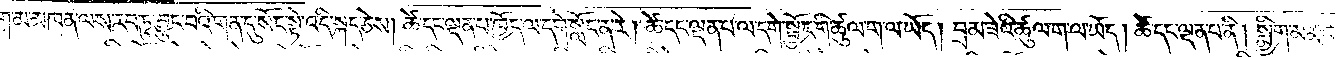སྨྱིག་མ་མཁན་ལས་རབ་ཏུ་བྱུང་བའི་གན་དུ་སོང་སྟེ་འདི་སྐད་ཅེས། ཚེ་དང་ལྡན་པ་ཁྱོད་ལ་དགེ་སློང་ན་རེ། ཚེ་དང་ལྡན་པ་ལ་དགེ་སྦྱོང་གི་ཚུལ་ག་ལ་ཡོད། བྲམ་ཟེའི་ཚུལ་ག་ལ་ཡོད། ཚེ་དང་ལྡན་པ་ནི། སྨྱིག་མ་མཁན་
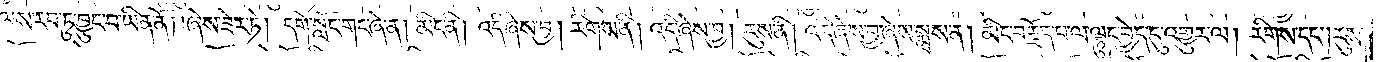ལས་རབ་ཏུ་བྱུང་བ་ཡིན་ནོ། །ཞེས་ཟེར་ཏེ། དགེ་སློང་གང་ཞེ་ན། མིང་ནི། འདི་ཞེས་བྱ། རིགས་ནི། འདི་ཞེས་བྱ། རུས་ནི། འདི་ཞེས་བྱ་ཞེས་སྨྲས་ན། མིང་བརྗོད་པ་ལ་ལྟུང་བྱེད་དུ་འགྱུར་ལ། རིགས་དང༌། རུས་
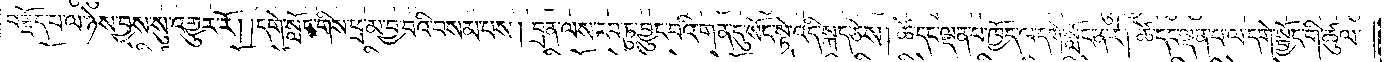བརྗོད་པ་ལ་ཉེས་བྱས་སུ་འགྱུར་རོ། །དགེ་སློང་གིས་ཕྲ་མ་བྱ་བའི་བསམ་པས། བྲན་ལས་རབ་ཏུ་བྱུང་བའི་གན་དུ་སོང་སྟེ་འདི་སྐད་ཅེས། ཚེ་དང་ལྡན་པ་ཁྱོད་ལ་དགེ་སློང་ན་རེ། ཚེ་དང་ལྡན་པ་ལ་དགེ་སྦྱོང་གི་ཚུལ་
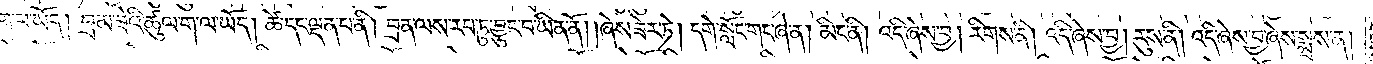ག་ལ་ཡོད། བྲམ་ཟེའི་ཚུལ་ག་ལ་ཡོད། ཚེ་དང་ལྡན་པ་ནི། བྲན་ལས་རབ་ཏུ་བྱུང་བ་ཡིན་ནོ། །ཞེས་ཟེར་ཏེ། དགེ་སློང་གང་ཞེ་ན། མིང་ནི། འདི་ཞེས་བྱ། རིགས་ནི། འདི་ཞེས་བྱ། རུས་ནི། འདི་ཞེས་བྱ་ཞེས་སྨྲས་ན།
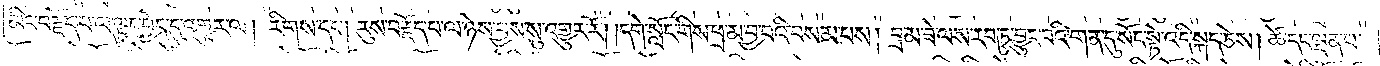མིང་བརྗོད་པ་ལ་ལྟུང་བྱེད་དུ་འགྱུར་ལ། རིགས་དང༌། རུས་བརྗོད་པ་ལ་ཉེས་བྱས་སུ་འགྱུར་རོ། །དགེ་སློང་གིས་ཕྲ་མ་བྱ་བའི་བསམ་པས། བྲམ་ཟེ་ལས་རབ་ཏུ་བྱུང་བའི་གན་དུ་སོང་སྟེ་འདི་སྐད་ཅེས། ཚེ་དང་ལྡན་པ་
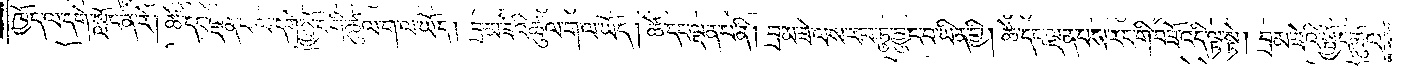ཁྱོད་ལ་དགེ་སློང་ན་རེ། ཚེ་དང་ལྡན་པ་ལ་དགེ་སྦྱོང་གི་ཚུལ་ག་ལ་ཡོད། བྲམ་ཟེའི་ཚུལ་ག་ལ་ཡོད། ཚེ་དང་ལྡན་པ་ནི། བྲམ་ཟེ་ལས་རབ་ཏུ་བྱུང་བ་ཡིན་གྱི། ཚེ་དང་ལྡན་པས་རང་གི་བཟོ་འདི་ལྟ་སྟེ། བྲམ་ཟེའི་སྤྱོད་ཚུལ་
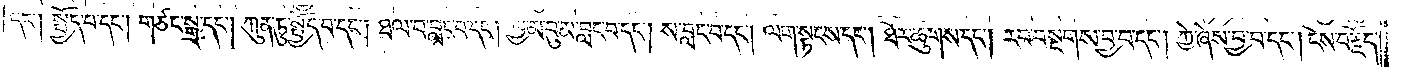དང༌། སྤྱོད་པ་དང༌། གཙང་སྒྲ་དང༌། ཀུན་ཏུ་སྤྱོད་པ་དང༌། ཐལ་བ་བླང་བ་དང༌། བྱ་མ་བུ་མ་བླང་བ་དང༌། ས་བླང་བ་དང༌། ལག་སྟངས་དང༌། ཐོར་ཚུགས་དང༌། རབ་བསྔགས་བྱ་བ་དང༌། ཀྱེ་ཞེས་བྱ་བ་དང༌། ངེས་བརྗོད་
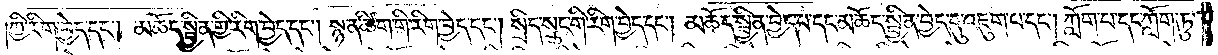ཀྱི་རིག་བྱེད་དང༌། མཆོད་སྦྱིན་གྱི་རིག་བྱེད་དང༌། སྙན་ཚིག་གི་རིག་བྱེད་དང༌། སྲིད་སྲུང་གི་རིག་བྱེད་དང༌། མཆོད་སྦྱིན་བྱེད་པ་དང་མཆོད་སྦྱིན་བྱེད་དུ་འཇུག་པ་དང༌། ཀློག་པ་དང་ཀློག་ཏུ་
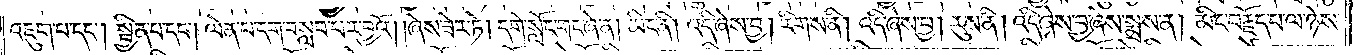འཇུག་པ་དང༌། སྦྱིན་པ་དང༌། ལེན་པ་དག་བསླབ་པར་བྱའོ། །ཞེས་ཟེར་ཏེ། དགེ་སློང་གང་ཞེ་ན། མིང་ནི། འདི་ཞེས་བྱ། རིགས་ནི། འདི་ཞེས་བྱ། རུས་ནི། འདི་ཞེས་བྱ་ཞེས་སྨྲས་ན། མིང་བརྗོད་པ་ལ་ཉེས་
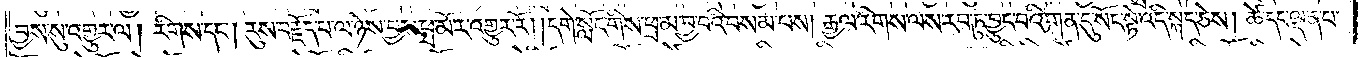བྱས་སུ་འགྱུར་ལ། རིགས་དང༌། རུས་བརྗོད་པ་ལ་ཉེས་བྱས་ཕྲ་མོར་འགྱུར་རོ། །དགེ་སློང་གིས་ཕྲ་མ་བྱ་བའི་བསམ་པས། རྒྱལ་རིགས་ལས་རབ་ཏུ་བྱུང་བའི་གན་དུ་སོང་སྟེ་འདི་སྐད་ཅེས། ཚེ་དང་ལྡན་པ་
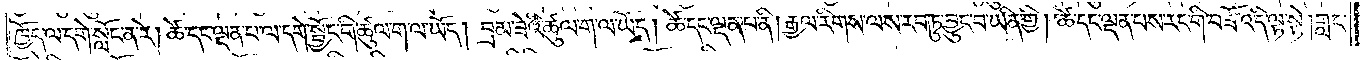ཁྱོད་ལ་དགེ་སློང་ན་རེ། ཚེ་དང་ལྡན་པ་ལ་དགེ་སྦྱོང་གི་ཚུལ་ག་ལ་ཡོད། བྲམ་ཟེའི་ཚུལ་ག་ལ་ཡོད། ཚེ་དང་ལྡན་པ་ནི། རྒྱལ་རིགས་ལས་རབ་ཏུ་བྱུང་བ་ཡིན་གྱི། ཚེ་དང་ལྡན་པས་རང་གི་བཟོ་འདི་ལྟ་སྟེ། གླང་
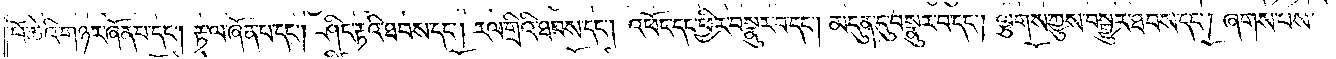པོ་ཆེའི་གཉར་ཞོན་པ་དང༌། རྟ་ལ་ཞོན་པ་དང༌། ཤིང་རྟའི་ཐབས་དང༌། རལ་གྲིའི་ཐབས་དང༌། འཕོང་དང་ཕྱིར་བསྣུར་བ་དང༌། མདུན་དུ་བསྣུར་བ་དང༌། ལྕགས་ཀྱུས་བསྒྱུར་ཐབས་དང༌། ཞགས་པས་
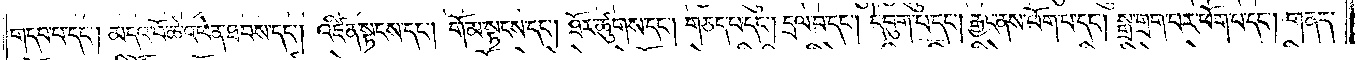གདབ་པ་དང༌། མདའ་བོ་ཆེ་འཕེན་ཐབས་དང༌། འཛིན་སྟངས་དང༌། གོམ་སྟངས་དང༌། ཐོར་ཚུགས་དང༌། གཅད་པ་དང༌། དྲལ་བ་དང༌། དབུག་པ་དང༌། རྒྱང་ནས་ཕོག་པ་དང༌། སྒྲ་གྲག་པར་ཕོག་པ་དང༌། གནད་
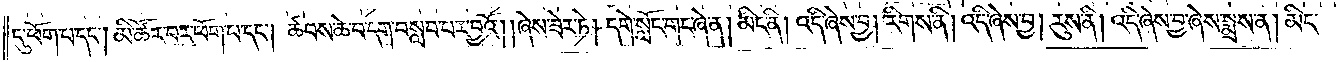དུ་ཕོག་པ་དང༌། མི་ཚོར་བར་ཕོག་པ་དང༌། ཚབས་ཆེ་བ་དག་བསླབ་པར་བྱའོ། །ཞེས་ཟེར་ཏེ། དགེ་སློང་གང་ཞེ་ན། མིང་ནི། འདི་ཞེས་བྱ། རིགས་ནི། འདི་ཞེས་བྱ། རུས་ནི། འདི་ཞེས་བྱ་ཞེས་སྨྲས་ན། མིང་
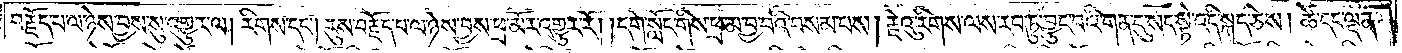བརྗོད་པ་ལ་ཉེས་བྱས་སུ་འགྱུར་ལ། རིགས་དང༌། རུས་བརྗོད་པ་ལ་ཉེས་བྱས་སུ་ཕྲ་མོར་འགྱུར་རོ། །དགེ་སློང་གིས་ཕྲ་མ་བྱ་བའི་བསམ་པས། རྗེའུ་རིགས་ལས་རབ་ཏུ་བྱུང་བའི་གན་དུ་སོང་སྟེ་འདི་སྐད་ཅེས། ཚེ་དང་ལྡན་
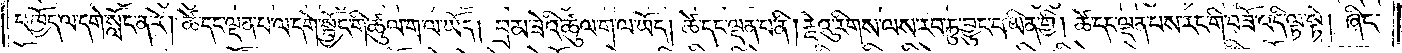པ་ཁྱོད་ལ་དགེ་སློང་ན་རེ། ཚེ་དང་ལྡན་པ་ལ་དགེ་སྦྱོང་གི་ཚུལ་ག་ལ་ཡོད། བྲམ་ཟེའི་ཚུལ་ག་ལ་ཡོད། ཚེ་དང་ལྡན་པ་ནི། རྗེའུ་རིགས་ལས་རབ་ཏུ་བྱུང་བ་ཡིན་གྱི། ཚེ་དང་ལྡན་པས་རང་གི་བཟོ་འདི་ལྟ་སྟེ། ཞིང་
